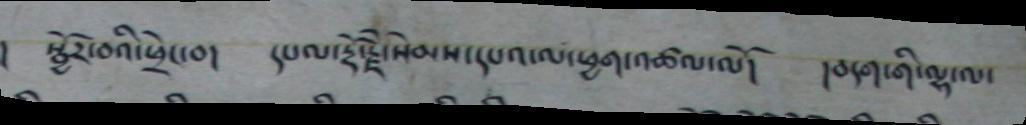། སྦྱོར་བའི་ཕྲེང་བ། དཔལ་རྡོ་རྗེ་སེམས་དཔའ་ལ་ཕྱག་འཚལ་ལོ། །བདག་གི་ལྷ་ལ་
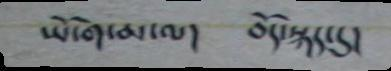ཡོ་ག་མ་ལ། བོད་སྐད་དུ།
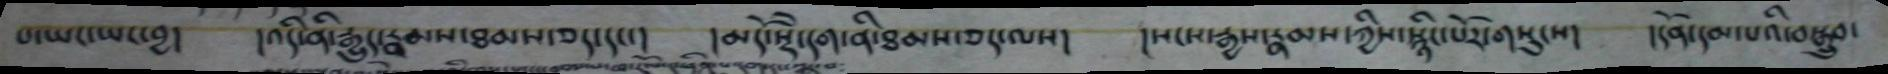པ་ཡང་ཡང་བྱ། །འདི་ནི་རྒྱུད་རྣམས་ཐམས་ཅད་དང་། །མདོ་སྡཻ་དག་ནི་ཐམས་ཅད་ལས། །སངས་རྒྱས་རྣམས་ཀྱིས་སྙིང་པོར་གསུངས། །དོན་དམ་པའི་བསྒྲུབ་
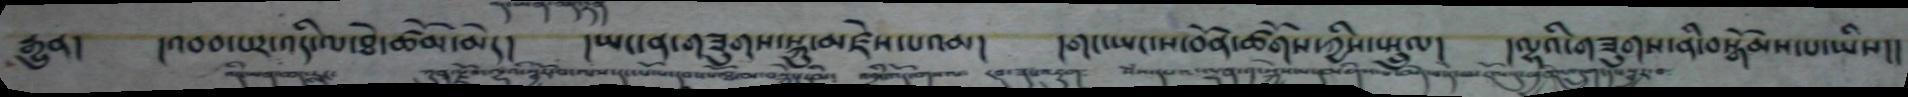རྒྱུན།   །འབབ་པར་འདི་ལ་ཐེ་ཚོམ་མེད།    །ཡང་ན་གཟུགས་སྐུ་མཛེས་པའམ།    །གང་ཡང་ས་བོན་ཚོགས་ཀྱིས་སྤྲུལ།   །ལྷའི་གཟུགས་ནི་བསྒོམས་པ་ཡིས།།
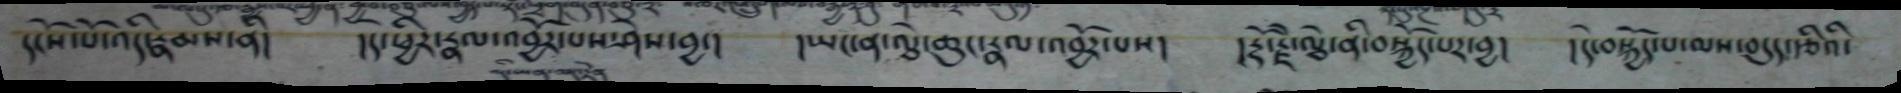དངོས་པོ་འདི་རྣམས་ནི།   །དེ་ཕྱིར་རྣལ་འབྱོར་པས་ཤེས་བྱ་།   །ཡང་ན་ལྕེ་ཆུང་རྣལ་འབྱོར་པས།   །རྡོ་རྗེ་ལྕེ་ནི་བསྐྱོད་པར་བྱ།   །དེ་བསྐྱོད་པ་ལས་བདུད་རྩིའི་
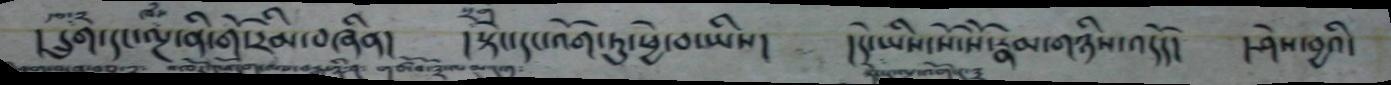དྲུག་དང་ལྔ་ནི་གོ་རིམ་བཞིན།   །སྟེང་དང་འོག་ཏུ་ཕྱེ་བ་ཡིས།        །དེ་ཡིས་སོ་སོ་རྣམ་གཉིས་འདོད།   །ཤེས་བྱའི་
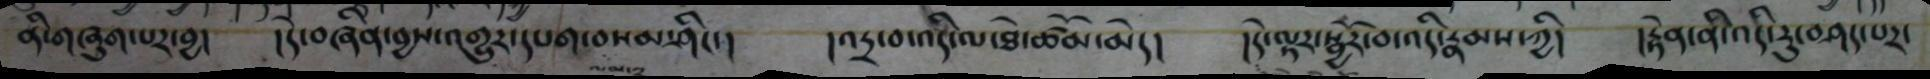ནི་གཞུག་པར་བྱ།   །དེ་བཞིན་བྱས་འགྱུར་དཔག་བསམ་ཤིང་།  །འདྲ་བ་འདི་ལ་ཐེ་ཚོམ་མེད།    །དེ་ལྟར་སྦྱོར་བ་འདི་རྣམས་ཀྱི།   །རྟེན་ནི་འདི་རུ་བཤད་པར་
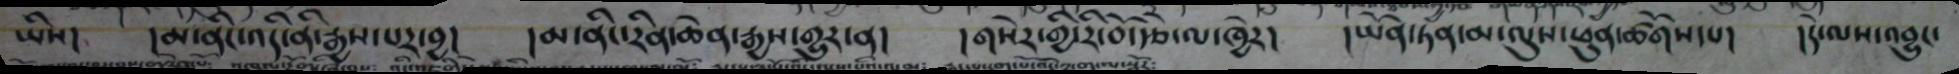ཡིས།   །མ་ནིང་འདི་ན་ི་རྒྱས་པར་བྱ།   །མ་ནིང་རིན་ཆེན་རྒྱས་གྱུར་ན།   །གསེར་གྱི་རི་བོ་རྩེ་ལ་ཁྱེར།   །ཡོན་ཏན་མ་ལུས་ཕུན་ཚོགས་པ།   །དེ་ལས་འབྱུང་
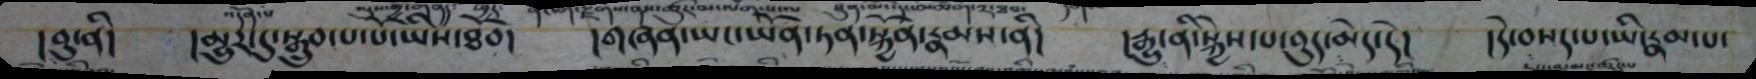།བུ་ནི།   །མྱུར་དུ་སྒྲུབ་པ་པོ་ཡིས་ཐོབ།   །གཞན་ཡང་ཡོན་ཏན་སྐྱོན་རྣམས་ནི།    །རྒྱུ་ནི་སྐྱེས་པ་བུད་མེད་དེ།   །དེ་བསད་པ་ཡི་རྣམ་པ་
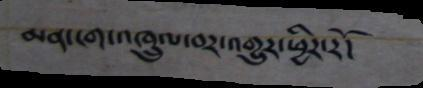མན་ངག་འཁྲུལ་བར་འགྱུར་ཕྱིར་རོ།
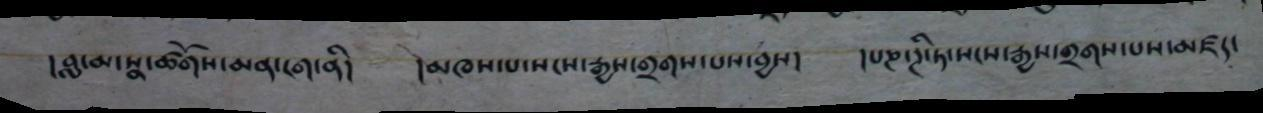།བླ་མ་སྣ་ཚོགས་མན་ངག་ནི། །མཁས་པ་སངས་རྒྱས་གྲགས་པས་བྱས། །པཎ་ཌི་ཏ་སངས་རྒྱས་གྲགས་པས་མཛད་
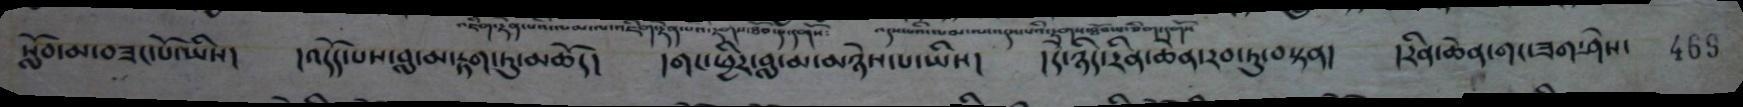སློབ་མ་བཟང་པོ་ཡིས།  །འདོད་པས་་བླ་མ་རྟག་ཏུ་མཆོད།    །གང་ཕྱིར་བླ་མ་མཉེས་པ་ཡིས།  །དེ་ཉིད་རིན་ཆེན་རབ་ཏུ་བསྟན།   །རིན་ཆེན་གང་ཟག་ཤེས།  469
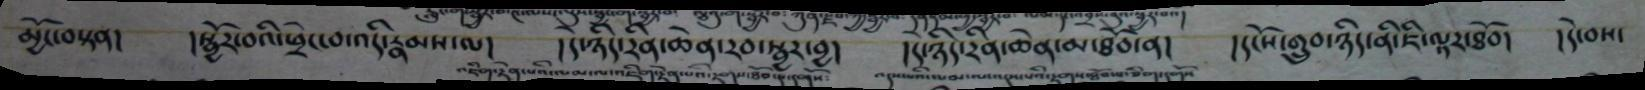མྱོང་བསྟན།  །སྦྱོར་བའི་ཕྲེང་བ་འདི་རྣམས་ལ།    །དེ་ཉིད་རིན་ཆེན་རབ་སྦྱར་བྱ།   །དེ་ཉིད་རིན་ཆེན་མ་ཐོབ་ན།    །དངོས་གྲུབ་ཉི་ནི་ཇི་ལྟར་ཐོབ།   །དེ་བས་
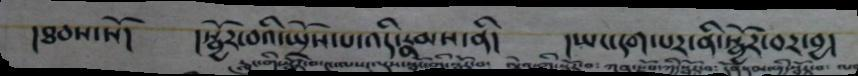།ཐབས་སོ།   །སྦྱོར་བའི་སྤྲོས་པ་འདི་རྣམས་ནི།   །ཡང་དག་པར་ནི་སྦྱོར་བར་བྱ།
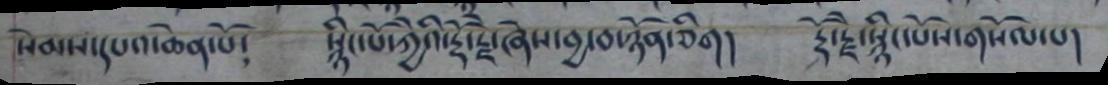སེམས་དཔའ་ཆེན་པོ༴ སྙིང་པོ་ཀྱེའི་རྡོ་རྗེ་ཞེས་བྱ་བ་ཉོན་ཅིག། རྡོ་རྗེ་སྙིང་པོས་གསོལ་པ།
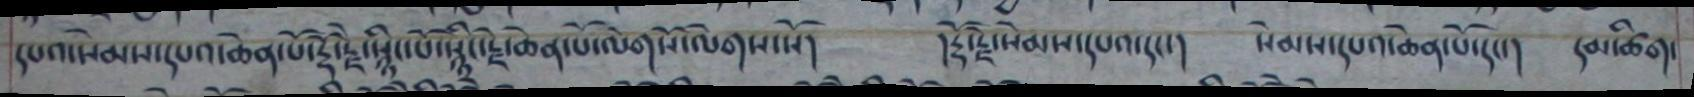དཔའ་སེམས་དཔའ་ཆེན་པོ་རྡོ་རྗེ་སྙིང་པོ་སྙིང་རྗེ་ཆེན་པོ་ལེགསོ་ལེགས་སོ། །རྡོ་རྗེ་སེམས་དཔའ་དང་། སེམས་དཔའ་ཆེན་པོ་དང་། དམ་ཚིག་
